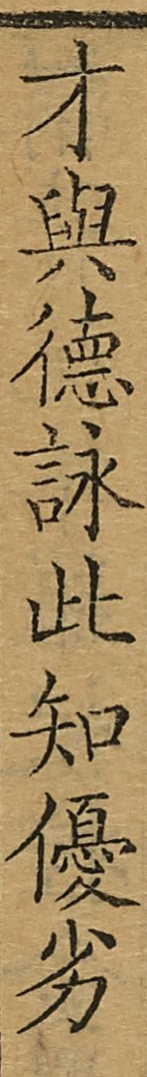才與德詠此知優劣
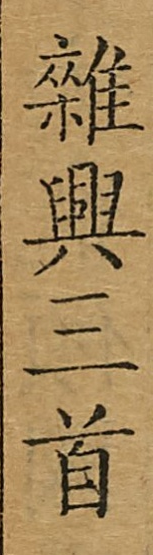雜興三首
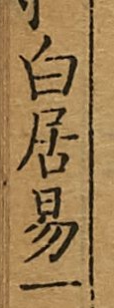白居易一
